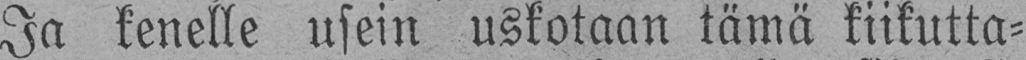Ja kenelle usein uskotaan tämä kiikutta-
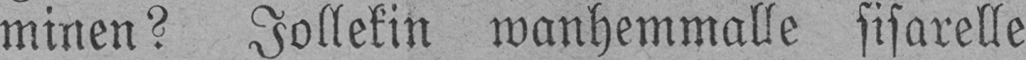minen? Jollekin wanhemmalle sisarelle
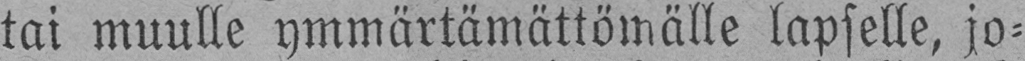tai muulle ymmärtämättömälle lapselle, jo-
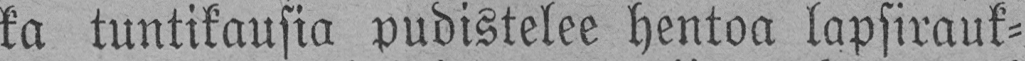ka tuntikausia pudistelee hentoa lapsirauk-
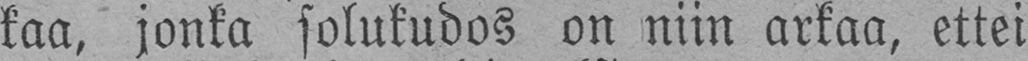kaa, jonka solukudos on niin arkaa, ettei
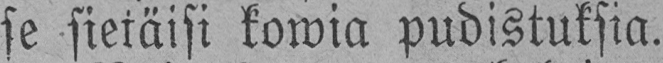se sietäisi kowia pudistuksia.
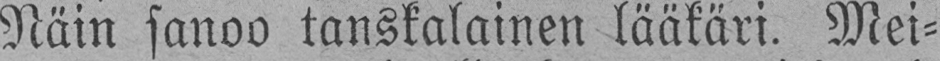Näin sanoo tanskalainen lääkäri. Mei-
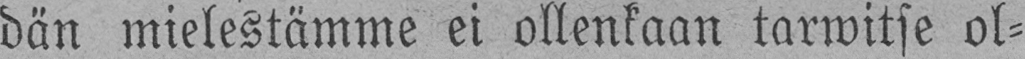dän mielestämme ei ollenkaan tarwitse ol-
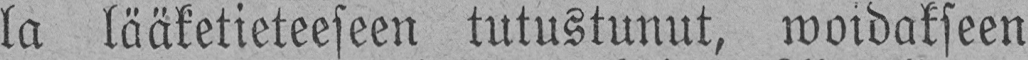la lääketieteeseen tutustunut, woidakseen
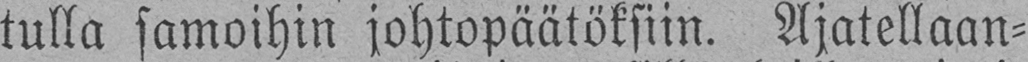tulla samoihin johtopäätöksiin. Ajatellaan-
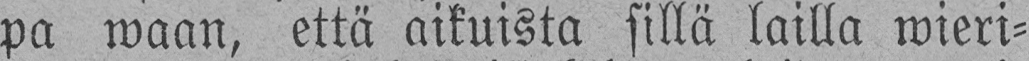pa waan, että aikuista sillä lailla wieri-
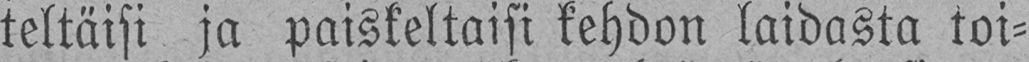teltäisi ja paiskeltaisi kehdon laidasta toi-
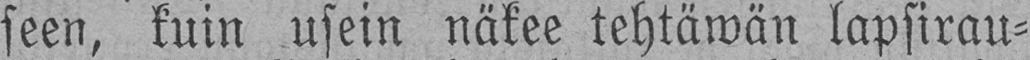seen, kuin usein näkee tehtäwän lapsirau-
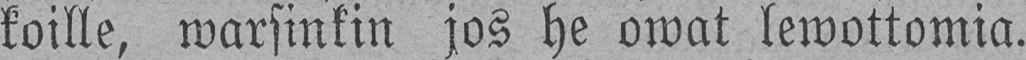koille, warsinkin jos he owat lewottomia.
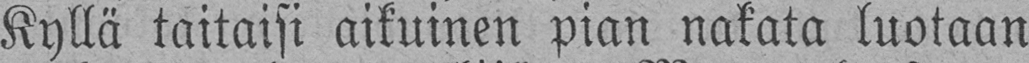Kyllä taitaisi aikuinen pian nakata luotaan
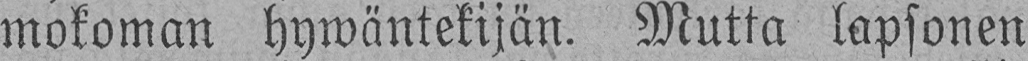mokoman hywäntekijän. Mutta lapsonen
